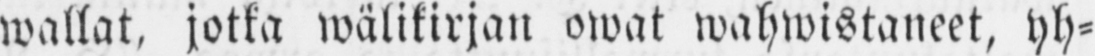wallat, jotka wälikirjan owat wahwistaneet, yh-
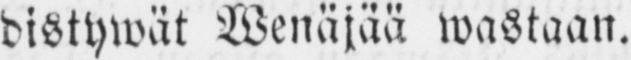distywät Wenäjää wastaan.
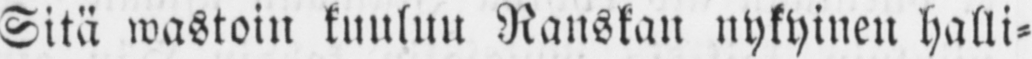Sitä wastoin kuuluu Ranskan nykyinen halli-
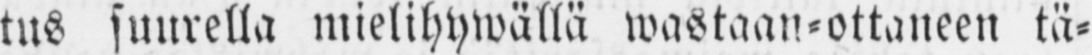tus suurella mielihywällä wastaan-ottaneen tä-
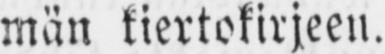män kiertokirjeen.
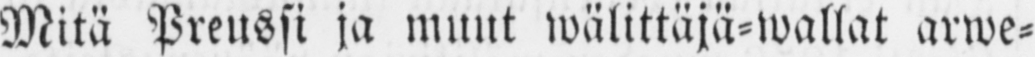Mitä Preussi ja muut wälittäjä-wallat arwe-
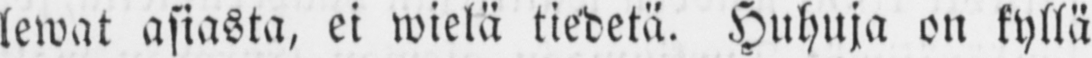lewat asiasta, ei wielä tiedetä. Huhuja on kyllä
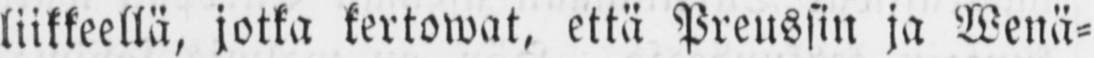liikkeellä, jotka kertowat, että Preussin ja Wenä-
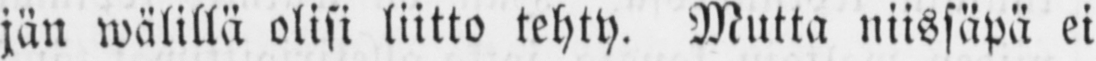jän wälillä olisi liitto tehty. Mutta niissäpä ei
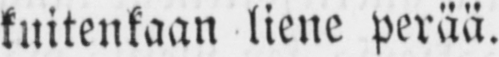kuitenkaan liene perää.
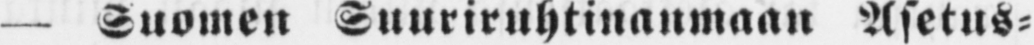— Suomen Suuriruhtinanmaan Asetus-
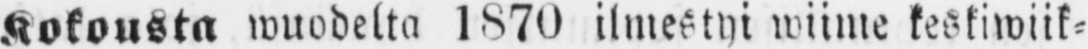kokousta wuodelta 1870 ilmestyi wiime keskiwiik-
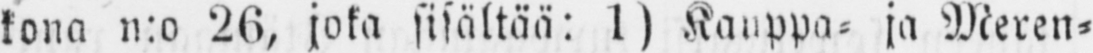kona n:o 26, joka sisältää: 1) Kauppa- ja Meren-
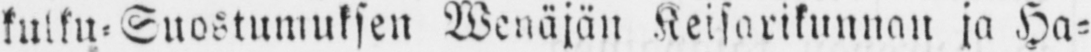kulku. Suostumuksen Wenäjän Keisarikunnan ja Ha-
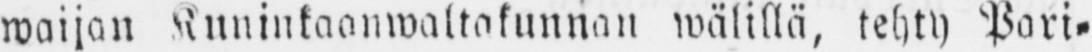waijan Kuninkaanwaltakunnan wälillä, tehty Pori-
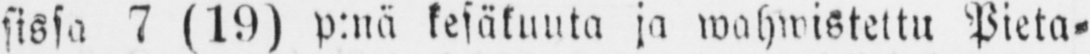sissa 7 (19) p:nä kesäkuuta ja wahwistettu Pieta-
